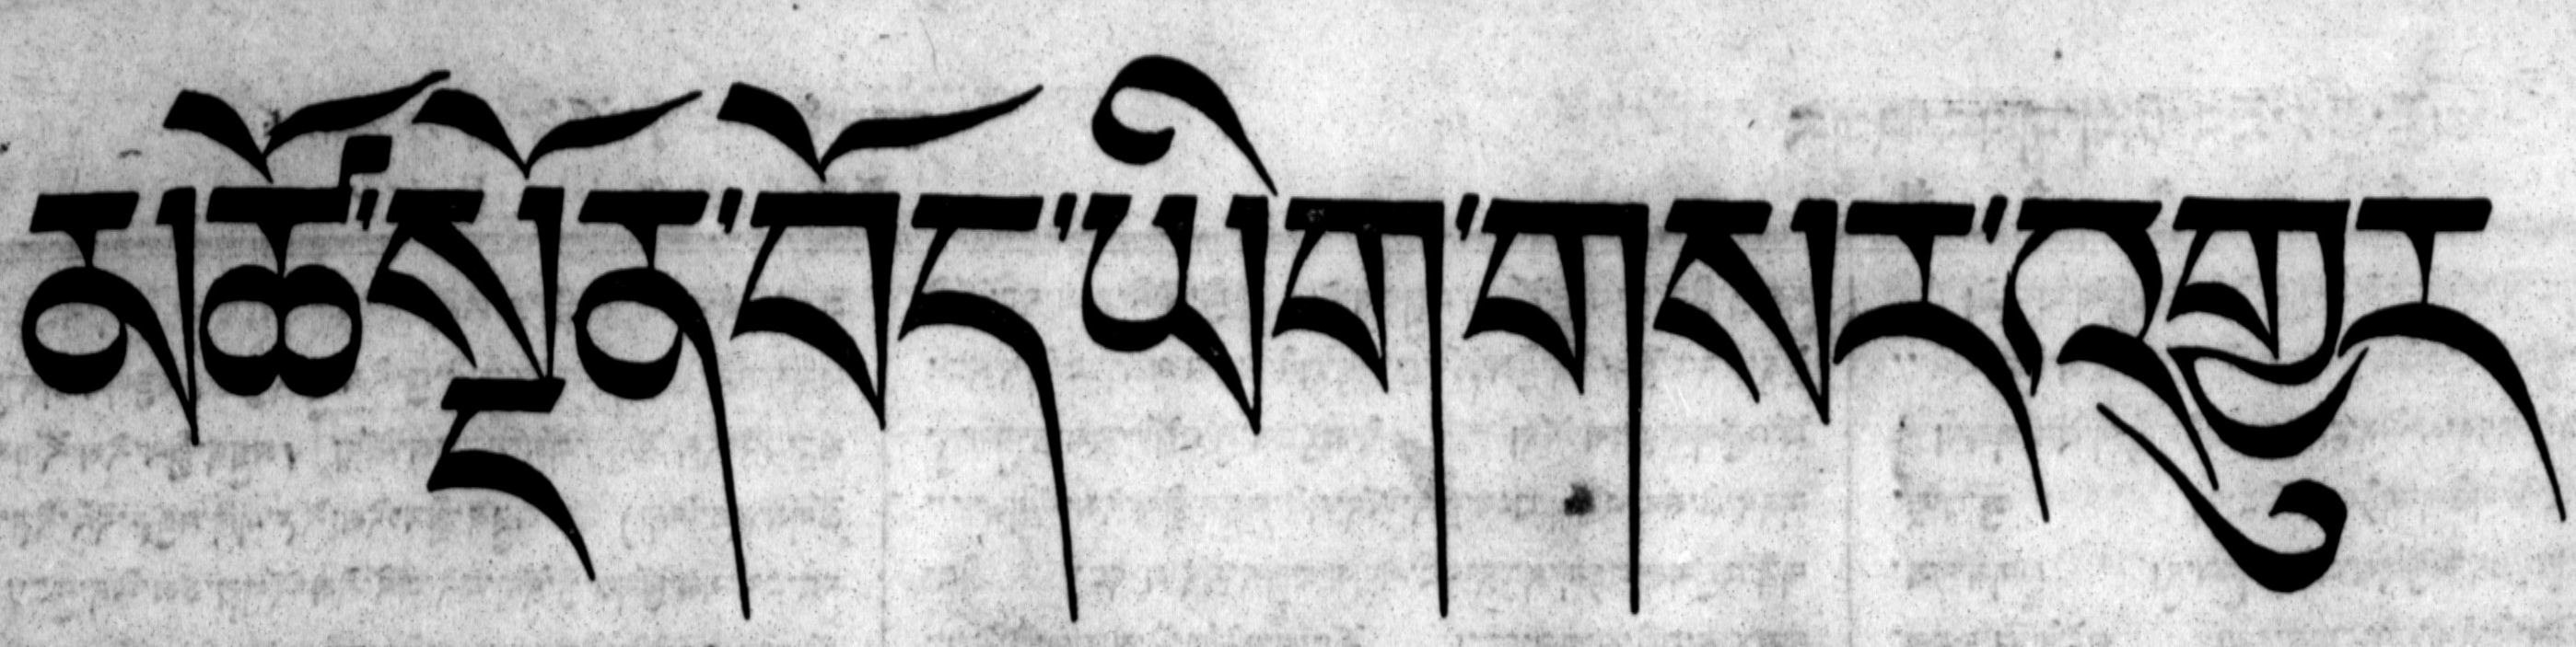མཚོ་སྔོན་བོད་ཡིག་གསར་འགྱུར
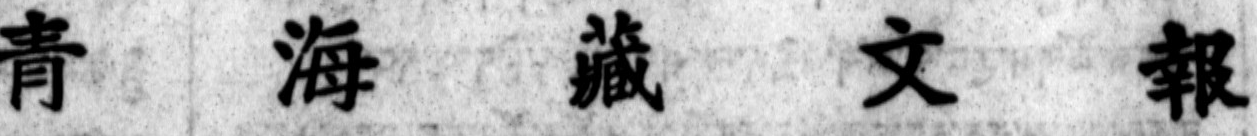青 海 藏 文 報
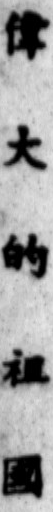偉 大 的 祖 國
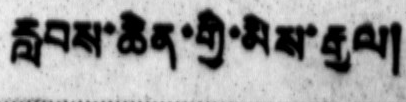རླབས་ཆེན་གྱི་མིས་རྒྱལ།
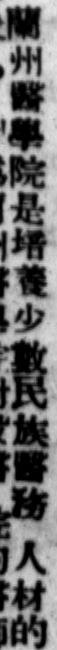蘭州醫學院是培養少數民族醫務人材的
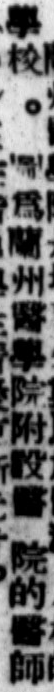學校。圖爲蘭州醫學院附設醫院的醫師
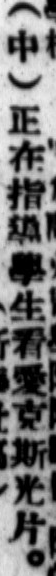（中）正在指導學生看愛克斯光片。
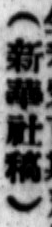（新華社稿）
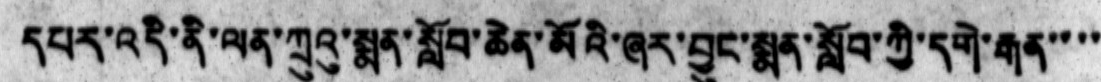དཔར་འདི་ནི་ལན་ཀྲུའུ་སྨན་སློབ་ཆེན་མོའི་ཞར་བྱུང་སྨན་སློབ་ཀྱི་དགེ་རྒན་་་་་
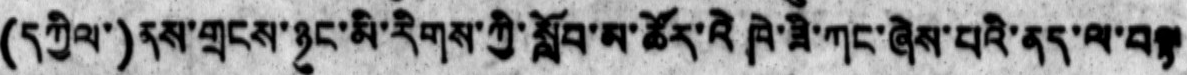(དཀྱིལ་)ནས་གྲངས་ཉུང་མི་རིགས་ཀྱི་སློབ་མ་ཚོར་འིཁེ་ཟི་ཀང་ཞེས་པའི་ནད་ལ་བལྟ་
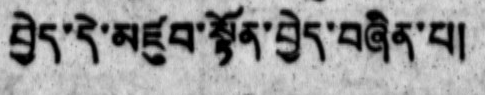བྱེད་དེ་མཛུབ་སྟོན་བྱེད་བཞིན་པ།
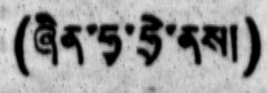(ཞིན་ཧྭ་ཧྲི་ནས།)
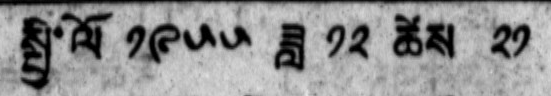སྤྱི་ལོ ༡༩༥༥ ཟླ ༡༢ ཚེས་ ༢༡
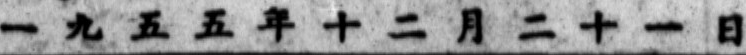一九五五年十二月二十一日
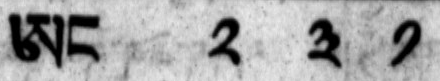ཨང ༢༣༡
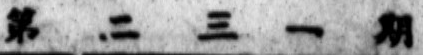第 二 三 一 期
